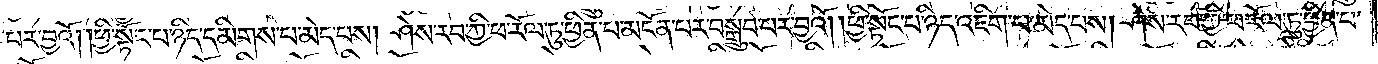པར་བྱའོ། །ཕྱི་སྟོང་པ་ཉིད་དམིགས་པ་མེད་པས། ཤེས་རབ་ཀྱི་ཕ་རོལ་ཏུ་ཕྱིན་པ་མངོན་པར་བསྒྲུབ་པར་བྱའོ། །ཕྱི་སྟོང་པ་ཉིད་འཇིག་པ་མེད་པས། ཤེས་རབ་ཀྱི་ཕ་རོལ་ཏུ་ཕྱིན་པ་
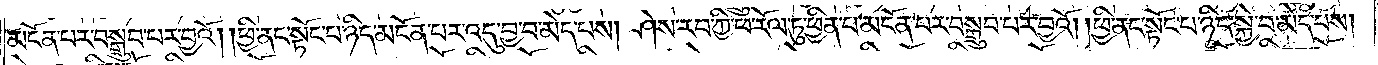མངོན་པར་བསྒྲུབ་པར་བྱའོ། །ཕྱི་ནང་སྟོང་པ་ཉིད་མངོན་པར་འདུ་བྱ་བ་མེད་པས། ཤེས་རབ་ཀྱི་ཕ་རོལ་ཏུ་ཕྱིན་པ་མངོན་པར་བསྒྲུབ་པར་བྱའོ། །ཕྱི་ནང་སྟོང་པ་ཉིད་སྐྱེ་བ་མེད་པས།
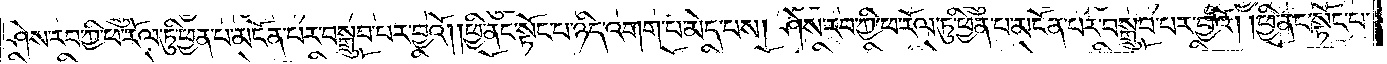ཤེས་རབ་ཀྱི་ཕ་རོལ་ཏུ་ཕྱིན་པ་མངོན་པར་བསྒྲུབ་པར་བྱའོ། །ཕྱི་ནང་སྟོང་པ་ཉིད་འགག་པ་མེད་པས། ཤེས་རབ་ཀྱི་ཕ་རོལ་ཏུ་ཕྱིན་པ་མངོན་པར་བསྒྲུབ་པར་བྱའོ། །ཕྱི་ནང་སྟོང་པ་
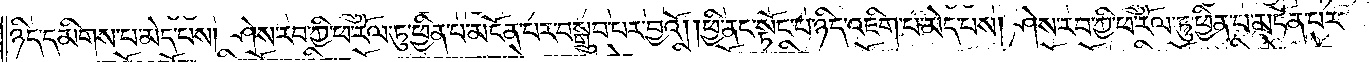ཉིད་དམིགས་པ་མེད་པས། ཤེས་རབ་ཀྱི་ཕ་རོལ་ཏུ་ཕྱིན་པ་མངོན་པར་བསྒྲུབ་པར་བྱའོ། །ཕྱི་ནང་སྟོང་པ་ཉིད་འཇིག་པ་མེད་པས། ཤེས་རབ་ཀྱི་ཕ་རོལ་ཏུ་ཕྱིན་པ་མངོན་པར་
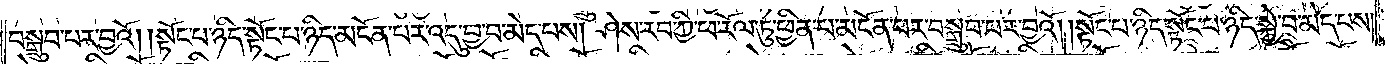བསྒྲུབ་པར་བྱའོ། །སྟོང་པ་ཉིད་སྟོང་པ་ཉིད་མངོན་པར་འདུ་བྱ་བ་མེད་པས། ཤེས་རབ་ཀྱི་ཕ་རོལ་ཏུ་ཕྱིན་པ་མངོན་པར་བསྒྲུབ་པར་བྱའོ། །སྟོང་པ་ཉིད་སྟོང་པ་ཉིད་སྐྱེ་བ་མེད་པས།
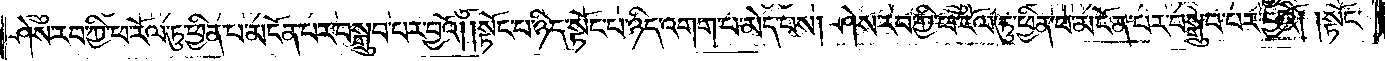ཤེས་རབ་ཀྱི་ཕ་རོལ་ཏུ་ཕྱིན་པ་མངོན་པར་བསྒྲུབ་པར་བྱའོ། །སྟོང་པ་ཉིད་སྟོང་པ་ཉིད་འགག་པ་མེད་པས། ཤེས་རབ་ཀྱི་ཕ་རོལ་ཏུ་ཕྱིན་པ་མངོན་པར་བསྒྲུབ་པར་བྱའོ། །སྟོང་
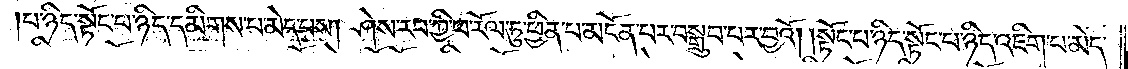པ་ཉིད་སྟོང་པ་ཉིད་དམིགས་པ་མེད་པས། ཤེས་རབ་ཀྱི་ཕ་རོལ་ཏུ་ཕྱིན་པ་མངོན་པར་བསྒྲུབ་པར་བྱའོ། །སྟོང་པ་ཉིད་སྟོང་པ་ཉིད་འཇིག་པ་མེད་
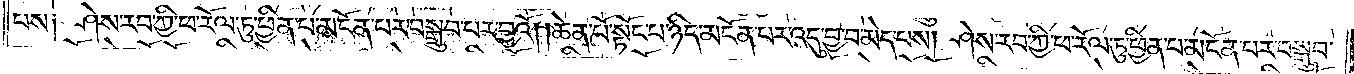པས༑ ཤེས་རབ་ཀྱི་ཕ་རོལ་ཏུ་ཕྱིན་པ་མངོན་པར་བསྒྲུབ་པར་བྱའོ། །ཆེན་པོ་སྟོང་པ་ཉིད་མངོན་པར་འདུ་བྱ་བ་མེད་པས། ཤེས་རབ་ཀྱི་ཕ་རོལ་ཏུ་ཕྱིན་པ་མངོན་པར་བསྒྲུབ་
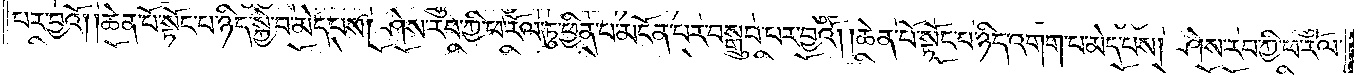པར་བྱའོ། །ཆེན་པོ་སྟོང་པ་ཉིད་སྐྱེ་བ་མེད་པས། ཤེས་རབ་ཀྱི་ཕ་རོལ་ཏུ་ཕྱིན་པ་མངོན་པར་བསྒྲུབ་པར་བྱའོ། །ཆེན་པོ་སྟོང་པ་ཉིད་འགག་པ་མེད་པས། ཤེས་རབ་ཀྱི་ཕ་རོལ་
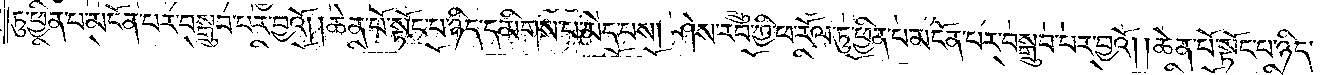ཏུ་ཕྱིན་པ་མངོན་པར་བསྒྲུབ་པར་བྱའོ། །ཆེན་པོ་སྟོང་པ་ཉིད་དམིགས་པ་མེད་པས། ཤེས་རབ་ཀྱི་ཕ་རོལ་ཏུ་ཕྱིན་པ་མངོན་པར་བསྒྲུབ་པར་བྱའོ། །ཆེན་པོ་སྟོང་པ་ཉིད་
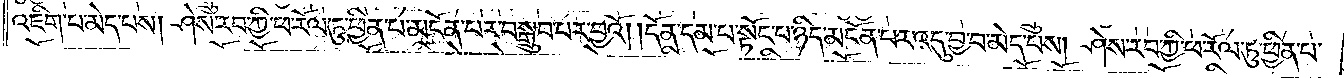འཇིག་པ་མེད་པས། ཤེས་རབ་ཀྱི་ཕ་རོལ་ཏུ་ཕྱིན་པ་མངོན་པར་བསྒྲུབ་པར་བྱའོ། །དོན་དམ་པ་སྟོང་པ་ཉིད་མངོན་པར་འདུ་བྱ་བ་མེད་པས། ཤེས་རབ་ཀྱི་ཕ་རོལ་ཏུ་ཕྱིན་པ་
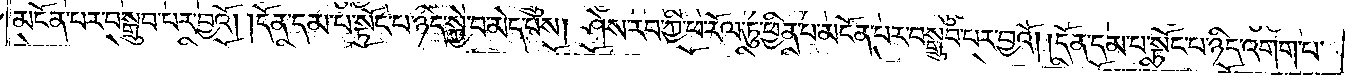མངོན་པར་བསྒྲུབ་པར་བྱའོ། །དོན་དམ་པ་སྟོང་པ་ཉིད་སྐྱེ་བ་མེད་པས། ཤེས་རབ་ཀྱི་ཕ་རོལ་ཏུ་ཕྱིན་པ་མངོན་པར་བསྒྲུབ་པར་བྱའོ། །དོན་དམ་པ་སྟོང་པ་ཉིད་འགག་པ་
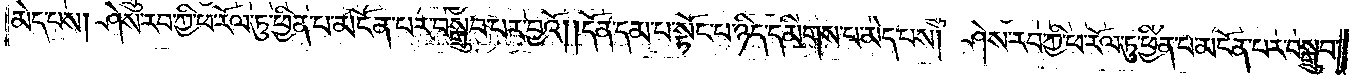མེད་པས། ཤེས་རབ་ཀྱི་ཕ་རོལ་ཏུ་ཕྱིན་པ་མངོན་པར་བསྒྲུབ་པར་བྱའོ། །དོན་དམ་པ་སྟོང་པ་ཉིད་དམིགས་པ་མེད་པས། ཤེས་རབ་ཀྱི་ཕ་རོལ་ཏུ་ཕྱིན་པ་མངོན་པར་བསྒྲུབ་
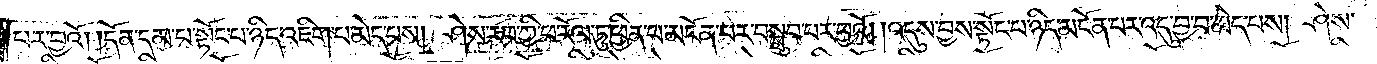པར་བྱའོ། །དོན་དམ་པ་སྟོང་པ་ཉིད་འཇིག་པ་མེད་པས། ཤེས་རབ་ཀྱི་ཕ་རོལ་ཏུ་ཕྱིན་པ་མངོན་པར་བསྒྲུབ་པར་བྱའོ། །འདུས་བྱས་སྟོང་པ་ཉིད་མངོན་པར་འདུ་བྱ་བ་མེད་པས། ཤེས་
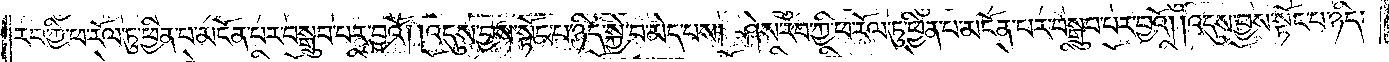རབ་ཀྱི་ཕ་རོལ་ཏུ་ཕྱིན་པ་མངོན་པར་བསྒྲུབ་པར་བྱའོ། །འདུས་བྱས་སྟོང་པ་ཉིད་སྐྱེ་བ་མེད་པས། ཤེས་རབ་ཀྱི་ཕ་རོལ་ཏུ་ཕྱིན་པ་མངོན་པར་བསྒྲུབ་པར་བྱའོ། །འདུས་བྱས་སྟོང་པ་ཉིད་
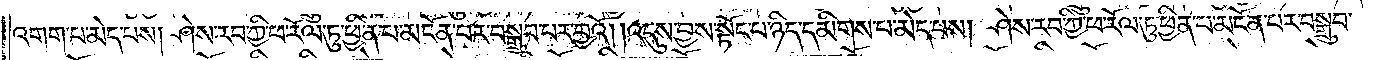འགག་པ་མེད་པས། ཤེས་རབ་ཀྱི་ཕ་རོལ་ཏུ་ཕྱིན་པ་མངོན་པར་བསྒྲུབ་པར་བྱའོ། །འདུས་བྱས་སྟོང་པ་ཉིད་དམིགས་པ་མེད་པས། ཤེས་རབ་ཀྱི་ཕ་རོལ་ཏུ་ཕྱིན་པ་མངོན་པར་བསྒྲུབ་
